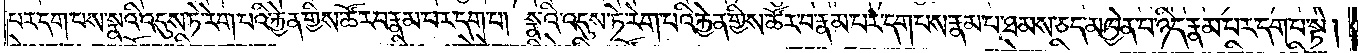པར་དག་པས་སྣའི་འདུས་ཏེ་རེག་པའི་རྐྱེན་གྱིས་ཚོར་བ་རྣམ་པར་དག་པ། སྣའི་འདུས་ཏེ་རེག་པའི་རྐྱེན་གྱིས་ཚོར་བ་རྣམ་པར་དག་པས་རྣམ་པ་ཐམས་ཅད་མཁྱེན་པ་ཉིད་རྣམ་པར་དག་པ་སྟེ།
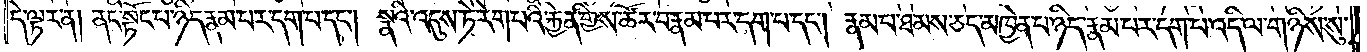དེ་ལྟར་ན། ནང་སྟོང་པ་ཉིད་རྣམ་པར་དག་པ་དང༌། སྣའི་འདུས་ཏེ་རེག་པའི་རྐྱེན་གྱིས་ཚོར་བ་རྣམ་པར་དག་པ་དང༌། རྣམ་པ་ཐམས་ཅད་མཁྱེན་པ་ཉིད་རྣམ་པར་དག་པ་འདི་ལ་གཉིས་སུ་
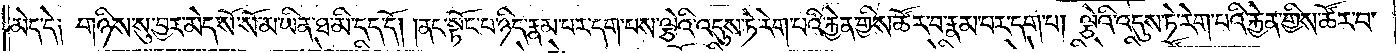མེད་དེ། གཉིས་སུ་བྱར་མེད་སོ་སོ་མ་ཡིན་ཐ་མི་དད་དོ། །ནང་སྟོང་པ་ཉིད་རྣམ་པར་དག་པས་ལྕེའི་འདུས་ཏེ་རེག་པའི་རྐྱེན་གྱིས་ཚོར་བ་རྣམ་པར་དག་པ། ལྕེའི་འདུས་ཏེ་རེག་པའི་རྐྱེན་གྱིས་ཚོར་བ་
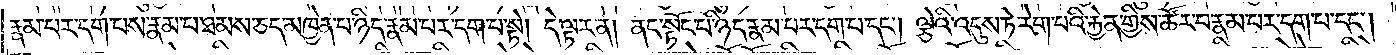རྣམ་པར་དག་པས་རྣམ་པ་ཐམས་ཅད་མཁྱེན་པ་ཉིད་རྣམ་པར་དག་པ་སྟེ། དེ་ལྟར་ན། ནང་སྟོང་པ་ཉིད་རྣམ་པར་དག་པ་དང༌། ལྕེའི་འདུས་ཏེ་རེག་པའི་རྐྱེན་གྱིས་ཚོར་བ་རྣམ་པར་དག་པ་དང༌།
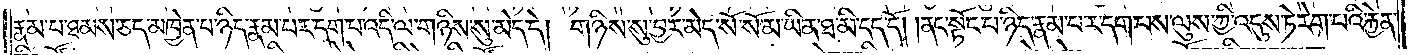རྣམ་པ་ཐམས་ཅད་མཁྱེན་པ་ཉིད་རྣམ་པར་དག་པ་འདི་ལ་གཉིས་སུ་མེད་དེ། གཉིས་སུ་བྱར་མེད་སོ་སོ་མ་ཡིན་ཐ་མི་དད་དོ། །ནང་སྟོང་པ་ཉིད་རྣམ་པར་དག་པས་ལུས་ཀྱི་འདུས་ཏེ་རེག་པའི་རྐྱེན་
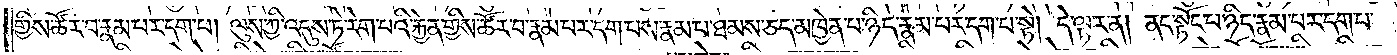གྱིས་ཚོར་བ་རྣམ་པར་དག་པ། ལུས་ཀྱི་འདུས་ཏེ་རེག་པའི་རྐྱེན་གྱིས་ཚོར་བ་རྣམ་པར་དག་པས་རྣམ་པ་ཐམས་ཅད་མཁྱེན་པ་ཉིད་རྣམ་པར་དག་པ་སྟེ། དེ་ལྟར་ན། ནང་སྟོང་པ་ཉིད་རྣམ་པར་དག་པ་
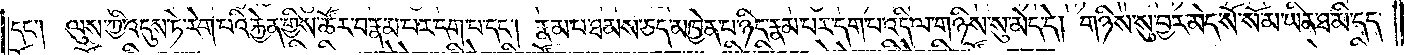དང༌། ལུས་ཀྱི་འདུས་ཏེ་རེག་པའི་རྐྱེན་གྱིས་ཚོར་བ་རྣམ་པར་དག་པ་དང༌། རྣམ་པ་ཐམས་ཅད་མཁྱེན་པ་ཉིད་རྣམ་པར་དག་པ་འདི་ལ་གཉིས་སུ་མེད་དེ། གཉིས་སུ་བྱར་མེད་སོ་སོ་མ་ཡིན་ཐ་མི་དད་
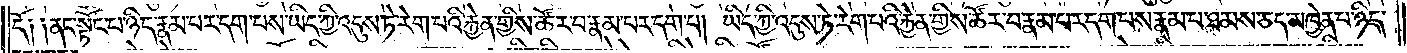དོ། །ནང་སྟོང་པ་ཉིད་རྣམ་པར་དག་པས་ཡིད་ཀྱི་འདུས་ཏེ་རེག་པའི་རྐྱེན་གྱིས་ཚོར་བ་རྣམ་པར་དག་པ། ཡིད་ཀྱི་འདུས་ཏེ་རེག་པའི་རྐྱེན་གྱིས་ཚོར་བ་རྣམ་པར་དག་པས་རྣམ་པ་ཐམས་ཅད་མཁྱེན་པ་ཉིད་
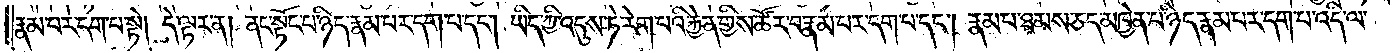རྣམ་པར་དག་པ་སྟེ། དེ་ལྟར་ན། ནང་སྟོང་པ་ཉིད་རྣམ་པར་དག་པ་དང༌། ཡིད་ཀྱི་འདུས་ཏེ་རེག་པའི་རྐྱེན་གྱིས་ཚོར་བ་རྣམ་པར་དག་པ་དང༌། རྣམ་པ་ཐམས་ཅད་མཁྱེན་པ་ཉིད་རྣམ་པར་དག་པ་འདི་ལ་
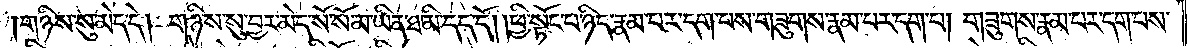གཉིས་སུ་མེད་དེ། གཉིས་སུ་བྱར་མེད་སོ་སོ་མ་ཡིན་ཐ་མི་དད་དོ། །ཕྱི་སྟོང་པ་ཉིད་རྣམ་པར་དག་པས་གཟུགས་རྣམ་པར་དག་པ། གཟུགས་རྣམ་པར་དག་པས་
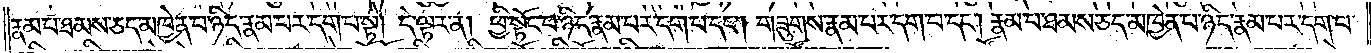རྣམ་པ་ཐམས་ཅད་མཁྱེན་པ་ཉིད་རྣམ་པར་དག་པ་སྟེ། དེ་ལྟར་ན། ཕྱི་སྟོང་པ་ཉིད་རྣམ་པར་དག་པ་དང༌། གཟུགས་རྣམ་པར་དག་པ་དང༌། རྣམ་པ་ཐམས་ཅད་མཁྱེན་པ་ཉིད་རྣམ་པར་དག་པ་
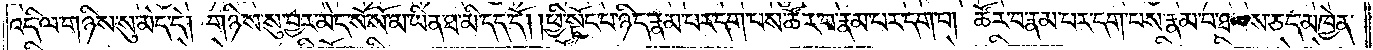འདི་ལ་གཉིས་སུ་མེད་དེ། གཉིས་སུ་བྱར་མེད་སོ་སོ་མ་ཡིན་ཐ་མི་དད་དོ། །ཕྱི་སྟོང་པ་ཉིད་རྣམ་པར་དག་པས་ཚོར་བ་རྣམ་པར་དག་པ། ཚོར་བ་རྣམ་པར་དག་པས་རྣམ་པ་ཐམས་ཅད་མཁྱེན་
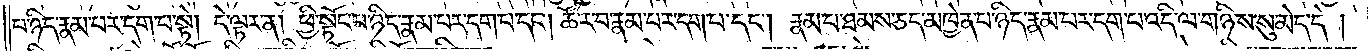པ་ཉིད་རྣམ་པར་དག་པ་སྟེ། དེ་ལྟར་ན་ཕྱི་སྟོང་པ་ཉིད་རྣམ་པར་དག་པ་དང༌། ཚོར་བ་རྣམ་པར་དག་པ་དང༌། རྣམ་པ་ཐམས་ཅད་མཁྱེན་པ་ཉིད་རྣམ་པར་དག་པ་འདི་ལ་གཉིས་སུ་མེད་དེ།
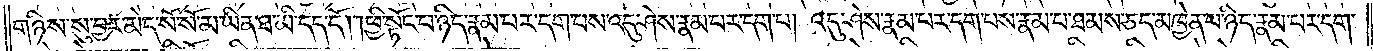གཉིས་སུ་བྱར་མེད་སོ་སོ་མ་ཡིན་ཐ་མི་དད་དོ། །ཕྱི་སྟོང་པ་ཉིད་རྣམ་པར་དག་པས་འདུ་ཤེས་རྣམ་པར་དག་པ། འདུ་ཤེས་རྣམ་པར་དག་པས་རྣམ་པ་ཐམས་ཅད་མཁྱེན་པ་ཉིད་རྣམ་པར་དག་
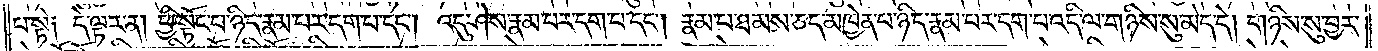པ་སྟེ། དེ་ལྟར་ན་ཕྱི་སྟོང་པ་ཉིད་རྣམ་པར་དག་པ་དང༌། འདུ་ཤེས་རྣམ་པར་དག་པ་དང༌། རྣམ་པ་ཐམས་ཅད་མཁྱེན་པ་ཉིད་རྣམ་པར་དག་པ་འདི་ལ་གཉིས་སུ་མེད་དེ། གཉིས་སུ་བྱར་
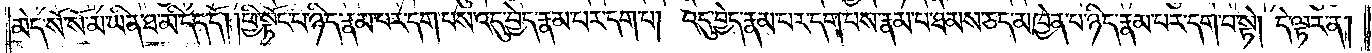མེད་སོ་སོ་མ་ཡིན་ཐ་མི་དད་དོ། །ཕྱི་སྟོང་པ་ཉིད་རྣམ་པར་དག་པས་འདུ་བྱེད་རྣམ་པར་དག་པ། འདུ་བྱེད་རྣམ་པར་དག་པས་རྣམ་པ་ཐམས་ཅད་མཁྱེན་པ་ཉིད་རྣམ་པར་དག་པ་སྟེ། དེ་ལྟར་ན།
